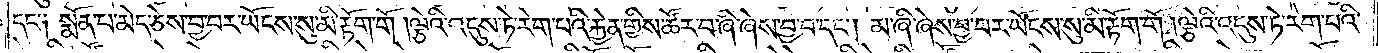དང༌༑ སྨོན་པ་མེད་ཅེས་བྱ་བར་ཡོངས་སུ་མི་རྟོག་གོ །ལྕེའི་འདུས་ཏེ་རེག་པའི་རྐྱེན་གྱིས་ཚོར་བ་ཞི་ཞེས་བྱ་བ་དང༌། མ་ཞི་ཞེས་བྱ་བར་ཡོངས་སུ་མི་རྟོག་གོ །ལྕེའི་འདུས་ཏེ་རེག་པའི་
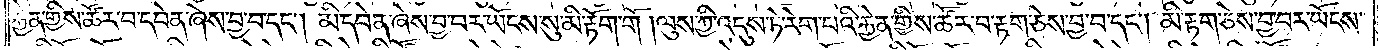རྐྱེན་གྱིས་ཚོར་བ་དབེན་ཞེས་བྱ་བ་དང༌། མི་དབེན་ཞེས་བྱ་བར་ཡོངས་སུ་མི་རྟོག་གོ །ལུས་ཀྱི་འདུས་ཏེ་རེག་པའི་རྐྱེན་གྱིས་ཚོར་བ་རྟག་ཅེས་བྱ་བ་དང༌། མི་རྟག་ཅེས་བྱ་བར་ཡོངས་
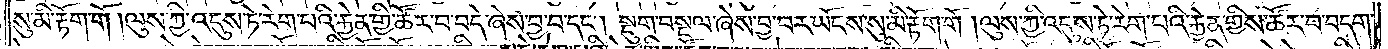སུ་མི་རྟོག་གོ །ལུས་ཀྱི་འདུས་ཏེ་རེག་པའི་རྐྱེན་གྱིས་ཚོར་བ་བདེ་ཞེས་བྱ་བ་དང༌། སྡུག་བསྔལ་ཞེས་བྱ་བར་ཡོངས་སུ་མི་རྟོག་གོ །ལུས་ཀྱི་འདུས་ཏེ་རེག་པའི་རྐྱེན་གྱིས་ཚོར་བ་བདག་
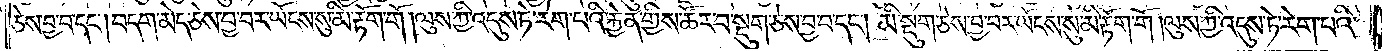ཅེས་བྱ་བ་དང༌། བདག་མེད་ཅེས་བྱ་བར་ཡོངས་སུ་མི་རྟོག་གོ །ལུས་ཀྱི་འདུས་ཏེ་རེག་པའི་རྐྱེན་གྱིས་ཚོར་བ་སྡུག་ཅེས་བྱ་བ་དང༌། མི་སྡུག་ཅེས་བྱ་བར་ཡོངས་སུ་མི་རྟོག་གོ །ལུས་ཀྱི་འདུས་ཏེ་རེག་པའི་
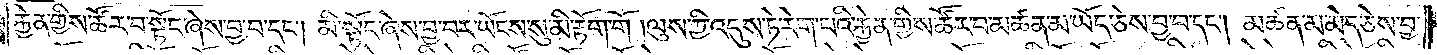རྐྱེན་གྱིས་ཚོར་བ་སྟོང་ཞེས་བྱ་བ་དང༌། མི་སྟོང་ཞེས་བྱ་བར་ཡོངས་སུ་མི་རྟོག་གོ །ལུས་ཀྱི་འདུས་ཏེ་རེག་པའི་རྐྱེན་གྱིས་ཚོར་བ་མཚན་མ་ཡོད་ཅེས་བྱ་བ་དང༌། མཚན་མ་མེད་ཅེས་བྱ་
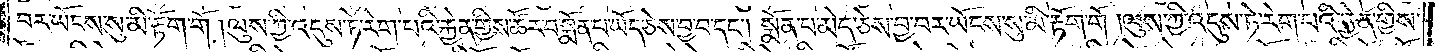བར་ཡོངས་སུ་མི་རྟོག་གོ །ལུས་ཀྱི་འདུས་ཏེ་རེག་པའི་རྐྱེན་གྱིས་ཚོར་བ་སྨོན་པ་ཡོད་ཅེས་བྱ་བ་དང༌། སྨོན་པ་མེད་ཅེས་བྱ་བར་ཡོངས་སུ་མི་རྟོག་གོ །ལུས་ཀྱི་འདུས་ཏེ་རེག་པའི་རྐྱེན་གྱིས་
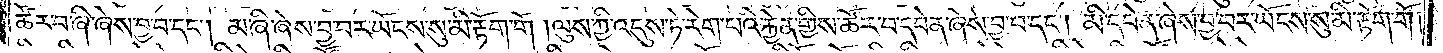ཚོར་བ་ཞི་ཞེས་བྱ་བ་དང༌། མ་ཞི་ཞེས་བྱ་བར་ཡོངས་སུ་མི་རྟོག་གོ །ལུས་ཀྱི་འདུས་ཏེ་རེག་པའི་རྐྱེན་གྱིས་ཚོར་བ་དབེན་ཞེས་བྱ་བ་དང༌། མི་དབེན་ཞེས་བྱ་བར་ཡོངས་སུ་མི་རྟོག་གོ །
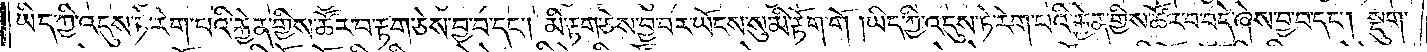ཡིད་ཀྱི་འདུས་ཏེ་རེག་པའི་རྐྱེན་གྱིས་ཚོར་བ་རྟག་ཅེས་བྱ་བ་དང༌། མི་རྟག་ཅེས་བྱ་བར་ཡོངས་སུ་མི་རྟོག་གོ །ཡིད་ཀྱི་འདུས་ཏེ་རེག་པའི་རྐྱེན་གྱིས་ཚོར་བ་བདེ་ཞེས་བྱ་བ་དང༌། སྡུག་
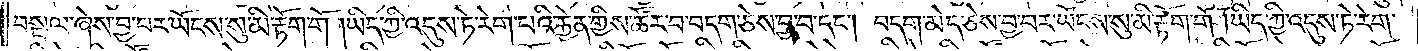བསྔལ་ཞེས་བྱ་བར་ཡོངས་སུ་མི་རྟོག་གོ །ཡིད་ཀྱི་འདུས་ཏེ་རེག་པའི་རྐྱེན་གྱིས་ཚོར་བ་བདག་ཅེས་བྱ་བ་དང༌། བདག་མེད་ཅེས་བྱ་བར་ཡོངས་སུ་མི་རྟོག་གོ །ཡིད་ཀྱི་འདུས་ཏེ་རེག་
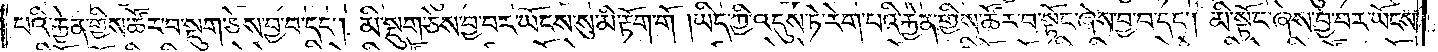པའི་རྐྱེན་གྱིས་ཚོར་བ་སྡུག་ཅེས་བྱ་བ་དང༌། མི་སྡུག་ཅེས་བྱ་བར་ཡོངས་སུ་མི་རྟོག་གོ །ཡིད་ཀྱི་འདུས་ཏེ་རེག་པའི་རྐྱེན་གྱིས་ཚོར་བ་སྟོང་ཞེས་བྱ་བ་དང༌། མི་སྟོང་ཞེས་བྱ་བར་ཡོངས་
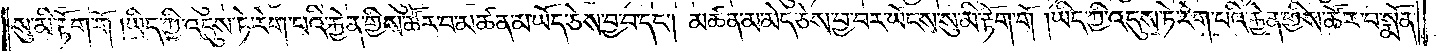སུ་མི་རྟོག་གོ །ཡིད་ཀྱི་འདུས་ཏེ་རེག་པའི་རྐྱེན་གྱིས་ཚོར་བ་མཚན་མ་ཡོད་ཅེས་བྱ་བ་དང༌། མཚན་མ་མེད་ཅེས་བྱ་བར་ཡོངས་སུ་མི་རྟོག་གོ །ཡིད་ཀྱི་འདུས་ཏེ་རེག་པའི་རྐྱེན་གྱིས་ཚོར་བ་སྨོན་
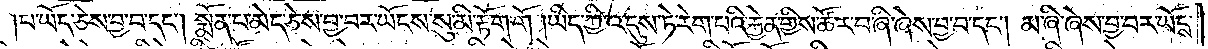པ་ཡོད་ཅེས་བྱ་བ་དང༌། སྨོན་པ་མེད་ཅེས་བྱ་བར་ཡོངས་སུ་མི་རྟོག་གོ །ཡིད་ཀྱི་འདུས་ཏེ་རེག་པའི་རྐྱེན་གྱིས་ཚོར་བ་ཞི་ཞེས་བྱ་བ་དང༌། མ་ཞི་ཞེས་བྱ་བར་ཡོངས་
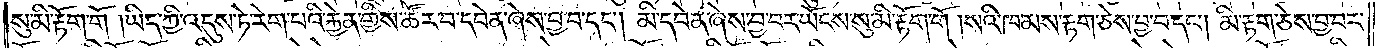སུ་མི་རྟོག་གོ །ཡིད་ཀྱི་འདུས་ཏེ་རེག་པའི་རྐྱེན་གྱིས་ཚོར་བ་དབེན་ཞེས་བྱ་བ་དང༌། མི་དབེན་ཞེས་བྱ་བར་ཡོངས་སུ་མི་རྟོག་གོ །སའི་ཁམས་རྟག་ཅེས་བྱ་བ་དང༌། མི་རྟག་ཅེས་བྱ་བར་
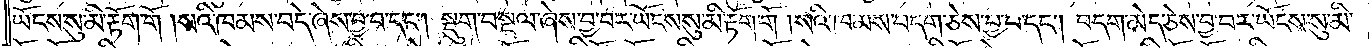ཡོངས་སུ་མི་རྟོག་གོ །སའི་ཁམས་བདེ་ཞེས་བྱ་བ་དང༌། སྡུག་བསྔལ་ཞེས་བྱ་བར་ཡོངས་སུ་མི་རྟོག་གོ །སའི་ཁམས་བདག་ཅེས་བྱ་བ་དང༌། བདག་མེད་ཅེས་བྱ་བར་ཡོངས་སུ་མི་
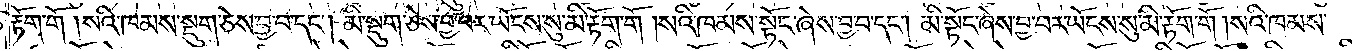རྟོག་གོ །སའི་ཁམས་སྡུག་ཅེས་བྱ་བ་དང༌། མི་སྡུག་ཅེས་བྱ་བར་ཡོངས་སུ་མི་རྟོག་གོ །སའི་ཁམས་སྟོང་ཞེས་བྱ་བ་དང༌། མི་སྟོང་ཞེས་བྱ་བར་ཡོངས་སུ་མི་རྟོག་གོ །སའི་ཁམས་
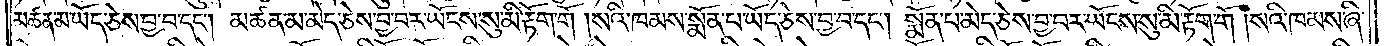མཚན་མ་ཡོད་ཅེས་བྱ་བ་དང༌། མཚན་མ་མེད་ཅེས་བྱ་བར་ཡོངས་སུ་མི་རྟོག་གོ །སའི་ཁམས་སྨོན་པ་ཡོད་ཅེས་བྱ་བ་དང༌། སྨོན་པ་མེད་ཅེས་བྱ་བར་ཡོངས་སུ་མི་རྟོག་གོ །སའི་ཁམས་ཞི་
